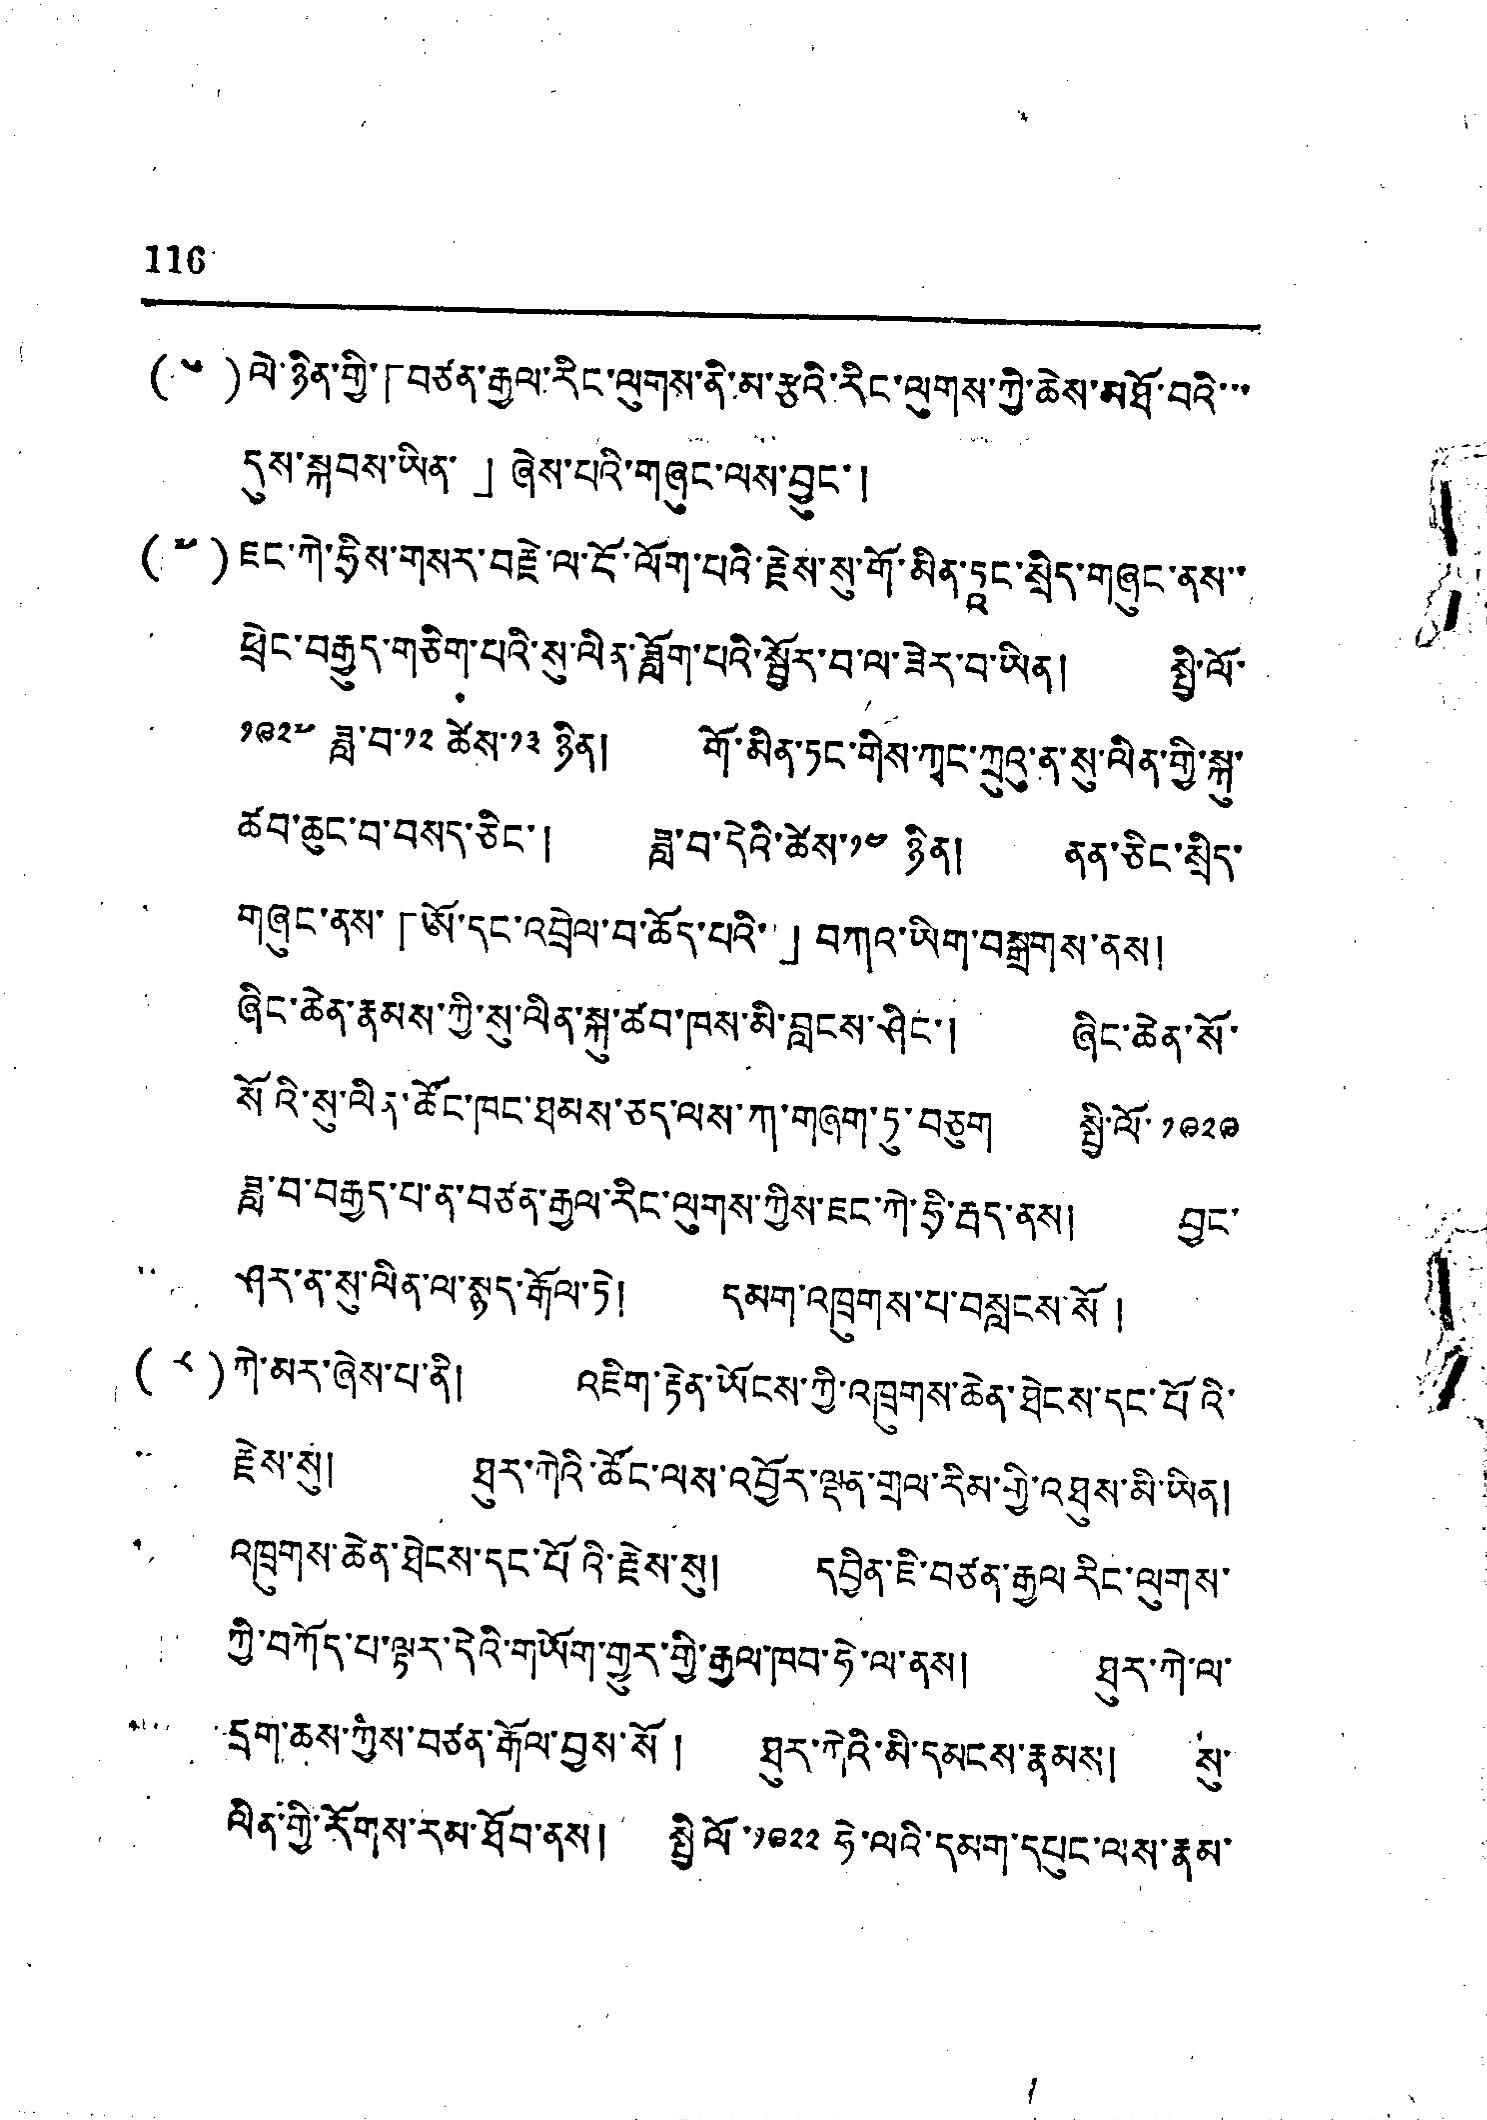116
(༦)ལེ་ཉིན་གྱི་「གཙན་རྒྱལ་རིང་ལུགས་ནི་མ་རྩའི་རིང་ལུགས་ཀྱི་ཆེས་མཐོ་བའི་་་
དུས་སྐབས་ཡིན་」ཞེས་པའི་གཞུང་ལས་བྱུང་།
(༧)ཇང་ཀེ་ཧྲིས་གསར་བརྗེ་ལ་ངོ་ལོག་པའི་རྗེས་སུ་གོ་མིན་ཏཱང་སྲིད་གཞུང་ནས་་
ཕྲེང་བརྒྱུད་གཅིག་པའི་སུ་ལིན་ཟློག་པའི་སྦྱོར་བ་ལ་ཟེར་བ་ཡིན། སྤྱི་ལོ་
༡༩༢༧ ཟླ་བ་༡༢ ཚེས་༡༣ ཉིན། གོ་མིན་ཏང་གིས་ཀྭང་ཀྲུའུ་ན་སུ་ལིན་གྱི་སྐུ་
ཚབ་ཆུང་བ་བསད་ཅིང་། ཟླ་བ་དེའི་ཚེས་༡༤ ཉིན། ནན་ཅིང་སྲིད་
གཞུང་ནས་「ཨོ་དང་འབྲེལ་བ་ཆོད་པའི་」བཀའ་ཡིག་བསྒྲགས་ནས།
ཞིང་ཆེན་རྣམས་ཀྱི་སུ་ལིན་སྐུ་ཚབ་ཁས་མི་བླངས་ཤིང་། ཞིང་ཆེན་སོ་
སོའི་སུ་ལིན་ཚོང་ཁང་ཐམས་ཅད་ལས་ཀ་གཞག་ཏུ་བཅུག སྤྱི་ལོ་༡༩༢༩
ཟླ་བ་བརྒྱད་པ་ན་བཙན་རྒྱལ་རིང་ལུགས་ཀྱིས་ཇང་ཀེ་ཧྲི་རྦད་ནས། བྱང་
ཤར་ན་སུ་ལིན་ལ་སྙད་རྒོལ་ཏེ། དམག་འཁྲུགས་པ་བསླངས་སོ།
(༨)ཀེ་མར་ཞེས་པ་ནི། འཇིག་རྟེན་ཡོངས་ཀྱི་འཁྲུགས་ཆེན་ཐེངས་དང་པོའི་
རྗེས་སུ། ཐུར་ཀེའི་ཚོང་ལས་འབྱོར་ལྡན་གྲལ་རིམ་གྱི་འཐུས་མི་ཡིན།
འཁྲུགས་ཆེན་ཐེངས་དང་པོའི་རྗེས་སུ། དབྱིན་ཇི་བཙན་རྒྱལ་རིང་ལུགས་
ཀྱི་བཀོད་པ་ལྟར་དེའི་གཡོག་གྱུར་གྱི་རྒྱལ་ཁབ་ཧེ་ལ་ནས། ཐུར་ཀེ་ལ་
དྲག་ཆས་ཀྱིས་བཙན་རྒོལ་བྱས་སོ། ཐུར་ཀེའི་མི་དམངས་རྣམས། སུ་
ལིན་གྱི་རོགས་རམ་ཐོབ་ནས། སྤྱི་ལོ་༡༩༢༢ ཧེ་ལའི་དམག་དཔུང་ལས་རྣམ་
